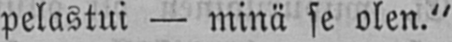pelastui — minä se olen."
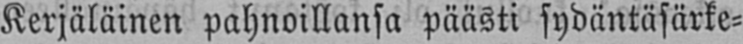Kerjäläinen pahnoillansa päästi sydäntäsärke-
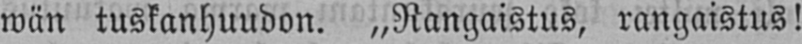wän tuskanhuudon. „Rangaistus, rangaistus!
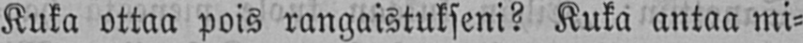Kuka ottaa pois rangaistukseni? Kuka antaa mi-
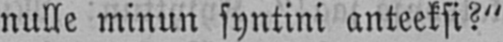nulle minun syntini anteeksi?"
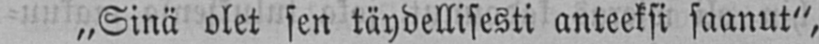„Sinä olet sen täydellisesti anteeksi saanut",
